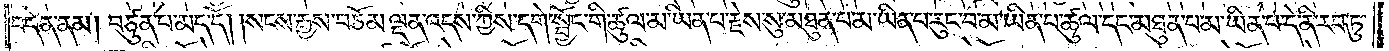བདེན་ནམ། བཙུན་པ་མད་དོ། །སངས་རྒྱས་བཅོམ་ལྡན་འདས་ཀྱིས་དགེ་སྦྱོང་གི་ཚུལ་མ་ཡིན་པ་རྗེས་སུ་མཐུན་པ་མ་ཡིན་པ་རུང་བ་མ་ཡིན་པ་ཚུལ་དང་མཐུན་པ་མ་ཡིན་པ་དེ་ནི་རབ་ཏུ་
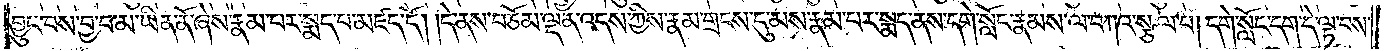བྱུང་བས་བྱ་བ་མ་ཡིན་ནོ་ཞེས་རྣམ་པར་སྨད་པ་མཛད་དོ། །དེ་ནས་བཅོམ་ལྡན་འདས་ཀྱིས་རྣམ་གྲངས་དུ་མས་རྣམ་པར་སྨད་ནས་དགེ་སློང་རྣམས་ལ་བཀའ་སྩལ་པ། དགེ་སློང་དག་དེ་ལྟ་བས་
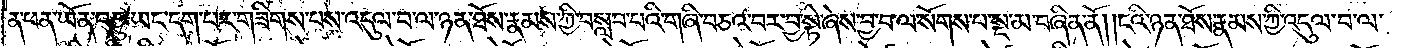ན་ཕན་ཡོན་བཅུ་ཡང་དག་པར་གཟིགས་པས་འདུལ་བ་ལ་ཉན་ཐོས་རྣམས་ཀྱི་བསླབ་པའི་གཞི་བཅའ་བར་བྱ་སྟེ་ཞེས་བྱ་བ་ལ་སོགས་པ་སྔ་མ་བཞིན་ནོ། །ངའི་ཉན་ཐོས་རྣམས་ཀྱི་འདུལ་བ་ལ་
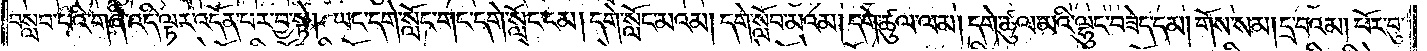བསླབ་པའི་གཞི་འདི་ལྟར་འདོན་པར་བྱ་སྟེ། ཡང་དགེ་སློང་གང་དགེ་སློང་ངམ། དགེ་སློང་མའམ། དགེ་སློབ་མའམ། དགེ་ཚུལ་ལམ། དགེ་ཚུལ་མའི་ལྷུང་བཟེད་དམ། གོས་སམ། དྲ་བའམ། ཕོར་བུ་
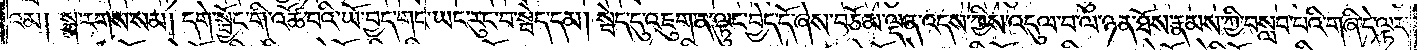འམ། སྐ་རགས་སམ། དགེ་སྦྱོང་གི་འཚོ་བའི་ཡོ་བྱད་གང་ཡང་རུང་བ་སྦེད་དམ། སྦེད་དུ་འཇུག་ན་ལྟུང་བྱེད་དོ་ཞེས་བཅོམ་ལྡན་འདས་ཀྱིས་འདུལ་བ་ལ་ཉན་ཐོས་རྣམས་ཀྱི་བསླབ་པའི་གཞི་དེ་ལྟར་
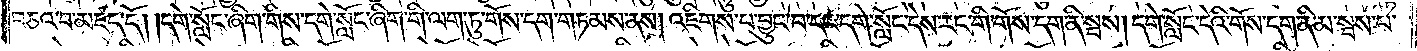བཅའ་བ་མཛད་དོ། །དགེ་སློང་ཞིག་གིས་དགེ་སློང་ཞིག་གི་ལག་ཏུ་གོས་དག་གཏམས་ནས། འཇིགས་པ་བྱུང་བ་དང་དགེ་སློང་དེས་རང་གི་གོས་དག་ནི་སྦས། དགེ་སློང་དེའི་གོས་དག་ནི་མ་སྦས་པ་
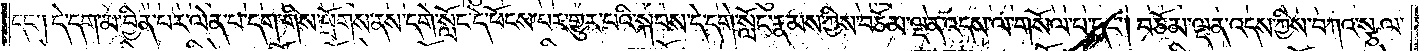དང༌། དེ་དག་མ་བྱིན་པར་ལེན་པ་དག་གིས་ཕྲོགས་ནས་དགེ་སློང་དེ་ཕོངས་པར་གྱུར་པའི་སྐབས་དེ་དགེ་སློང་རྣམས་ཀྱིས་བཅོམ་ལྡན་འདས་ལ་གསོལ་བ་དང༌། བཅོམ་ལྡན་འདས་ཀྱིས་བཀའ་སྩལ་
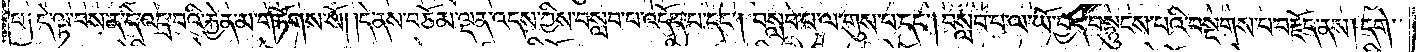པ། དེ་ལྟ་བས་ན་དེ་འདྲ་བའི་རྐྱེན་མ་གཏོགས་སོ། །དེ་ནས་བཅོམ་ལྡན་འདས་ཀྱིས་བསླབ་པ་འདོད་པ་དང༌། བསླབ་པ་ལ་གུས་པ་དང༌། བསླབ་པ་ལ་ཡོ་བྱད་བསྙུངས་པའི་བསྔགས་པ་བརྗོད་ནས། དགེ་
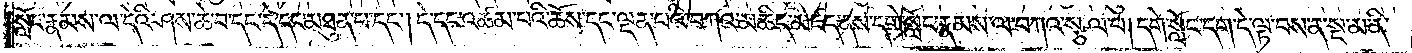སློང་རྣམས་ལ་དེའི་ཤས་ཆེ་བ་དང་དེ་དང་མཐུན་པ་དང༌། དེ་དང་འཚམ་པའི་ཆོས་དང་ལྡན་པའི་བཀའ་མཆིད་མཛད་ནས་དགེ་སློང་རྣམས་ལ་བཀའ་སྩལ་པ། དགེ་སློང་དག་དེ་ལྟ་བས་ན་སྔ་མ་ནི་
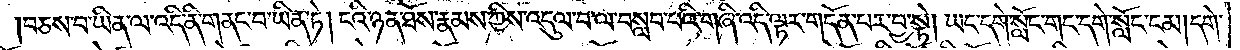བཅས་པ་ཡིན་ལ་འདི་ནི་གནང་བ་ཡིན་ཏེ། ངའི་ཉན་ཐོས་རྣམས་ཀྱིས་འདུལ་བ་ལ་བསླབ་པའི་གཞི་འདི་ལྟར་གདོན་པར་བྱ་སྟེ། ཡང་དགེ་སློང་གང་དགེ་སློང་ངམ། དགེ་
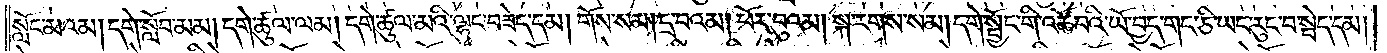སློང་མའམ། དགེ་སློབ་མམ། དགེ་ཚུལ་ལམ། དགེ་ཚུལ་མའི་ལྷུང་བཟེད་དམ། གོས་སམ། དྲ་བའམ། ཕོར་བུའམ། སྐ་རགས་སམ། དགེ་སྦྱོང་གི་འཚོ་བའི་ཡོ་བྱད་གང་ཅི་ཡང་རུང་བ་སྦེད་དམ།
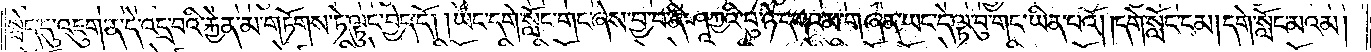སྦེད་དུ་འཇུག་ན་དེ་འདྲ་བའི་རྐྱེན་མ་གཏོགས་ཏེ་ལྟུང་བྱེད་དོ། །ཡང་དག་སློང་གང་ཞེས་བྱ་བ་ནི་ཤཱཀྱའི་བུ་ཉེ་དགའམ་གཞན་ཡང་དེ་ལྟ་བུ་གང་ཡིན་པའོ། །དགེ་སློང་ངམ། དགེ་སློང་མའམ།
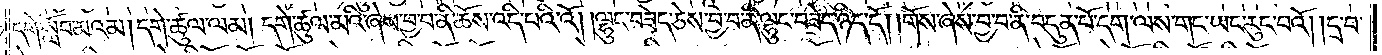དགེ་སློང་མའམ། དགེ་ཚུལ་ལམ། དགེ་ཚུལ་མའི་ཞེས་བྱ་བ་ནི་ཆོས་འདི་པའི་འོ། །ལྷུང་བཟེད་ཅེས་བྱ་བ་ནི་ལྷུང་བཟེད་ཉིད་དོ། །གོས་ཞེས་བྱ་བ་ནི་བདུན་པོ་དག་ལས་གང་ཡང་རུང་བའོ། །དྲ་བ་
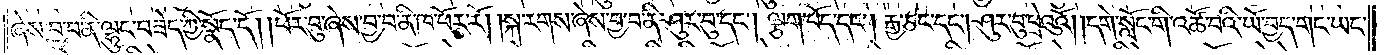ཞེས་བྱ་བ་ནི་ལྷུང་བཟེད་ཀྱི་སྣོད་དོ། །ཕོར་བུ་ཞེས་བྱ་བ་ནི་ཁ་ཕོར་རོ། །སྐ་རགས་ཞེས་བྱ་བ་ནི་ཤུར་བུ་དང༌། ལྕག་པོད་དང༌། རྒྱ་ཅང་དང༌། ཤུར་བུ་ཕྲེའུའོ། །དགེ་སློང་གི་འཚོ་བའི་ཡོ་བྱད་གང་ཡང་
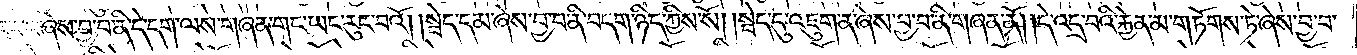རུང་བ་ཞེས་བྱ་བ་ནི་དེ་དག་ལས་གཞན་གང་ཡང་རུང་བའོ། །སྦེད་དམ་ཞེས་བྱ་བ་ནི་བདག་ཉིད་ཀྱིས་སོ། །སྦེད་དུ་འཇུག་ན་ཞེས་བྱ་བ་ནི་གཞན་ནོ། །དེ་འདྲ་བའི་རྐྱེན་མ་གཏོགས་ཏེ་ཞེས་བྱ་བ་
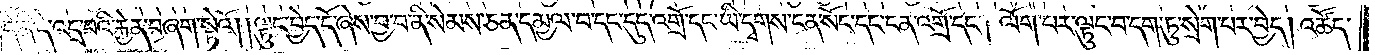དེ་ནི་དེ་འདྲ་བའི་རྐྱེན་བཞག་སྟེའོ། །ལྟུང་བྱེད་དོ་ཞེས་བྱ་བ་ནི་སེམས་ཅན་དམྱལ་བ་དང་དུད་འགྲོ་དང་ཡི་དྭགས་ངན་སོང་དང་ངན་འགྲོ་དང༌། ལོག་པར་ལྟུང་བ་དག་ཏུ་སྲེག་པར་བྱེད། འཚོད་
